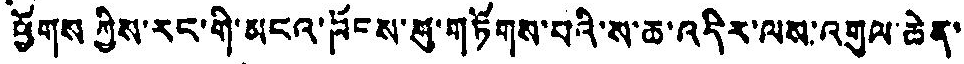ཕྱོགས ཀྱིས་རང་གི་མངའ་ཁོངས་སུ་གཏོགས་པའི་ས་ཆ་འདིར་ལས་འགུལ་ཆེན་
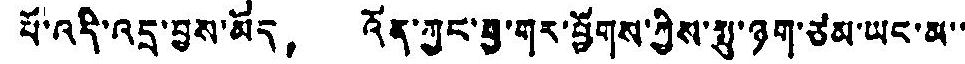པོ་འདི་འདྲ་བྱས་མོད， འོན་ཀྱང་བྱ་གར་ཕྱོགས་ཀྱིས་སྤུ་ཉག་ཙམ་ཡང་མ་་
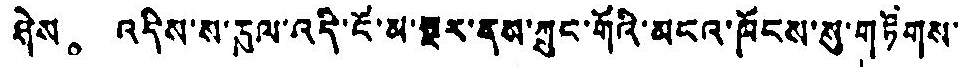ཤེས。 འདིས་ས་ཁུལ་འདི་ངོ་མ་སྔར་ནས་ཀྲུང་གོའི་མངའ་ཁོངས་སུ་གཏོགས་
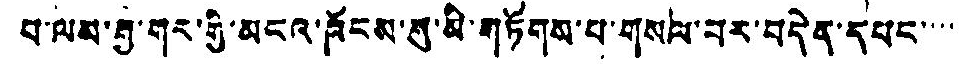བ་ལམ་རྒྱ་གར་གྱི་མངའ་ཁོངས་སུ་མི་གཏོགས་པ་གསལ་བར་བདེན་དཔང་་་་་
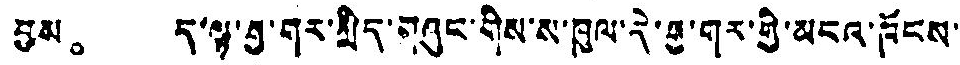བྱས。 ད་ལྟ་བུ་གར་སྲིད་མཞུང་གིས་ས་ཁུལ་དེ་རྒྱ་གར་གྱི་མངའ་ཁོངས་
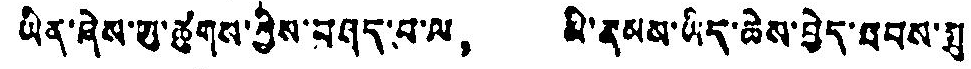ཡིན་ཞེས་ཨུ་ཚུགས་ཀྱིས་བཤད་པ་ལ， མི་རྣམས་ཡིད་ཆེས་བྱེད་ཐབས་སྨུ་
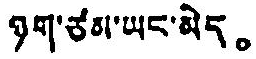ཉག་ཙམ་ཡང་མེད。
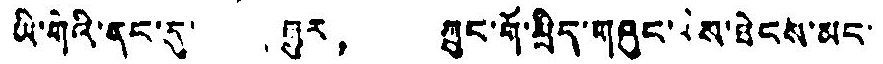ཡི་གེའི་ནང་དུ་ རྒྱུར， ཀྲུང་གོ་སྲིད་གཞུང་རིས་ཐེངས་མང་
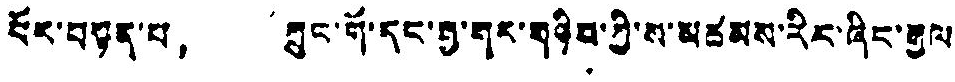པོར་བསྟན་པ， ཀྲུང་གོ་དང་བྱ་གར་གཉིབ་ཀྱི་ས་མཚམས་རིང་ཞིང་རྒྱལ
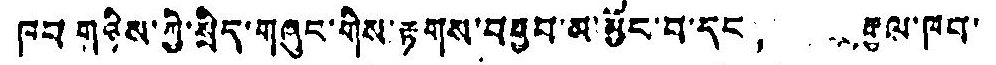ཁབ གཉིས་ཀྱི་སྲིད་གཞུང་གིས་རྟགས་བརྒྱབ་མ་མྱོང་བ་དང， རྒྱལ་ཁབ་
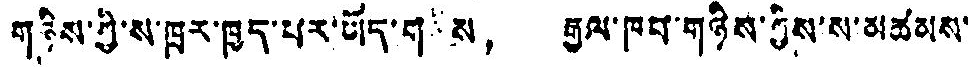གཉིས་ཀྱི་ས་ཁྲུར་ཁྱད་པར་ཡོད་ག ས， རྒྱལ་ཁབ་གཉིས་ཀྱིས་ས་མཚམས་
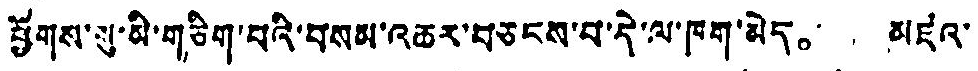ཕྱོགས་སུ་མི་གཅིག་པའི་བསམ་འཆར་བཅངས་བ་དེ་ལ་ཁག་མེད。 མཛའ་
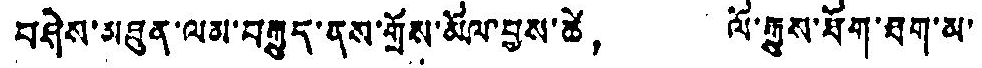བཤེས་མཐུན་ལམ་བརྒྱུད་ནས་གྲོས་མོལ་བྱས་ཚེ， ལོ་རྒྱུས་ཐོག་ཐག་མ་
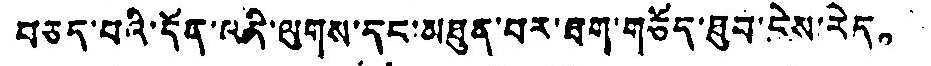བཅད་པའི་དོན་འནི་ལུགས་དང་མཐུན་པར་ཐག་གཅོད་ཐུབ་ངེས་རེད。
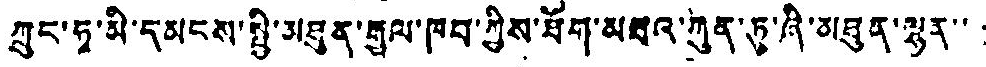ཀྲུང་ཧྭ་མི་དམངས་སྤྱི་མཐུན་རྒྱལ་ཁབ་ཀྱིས་ཐོག་མཐའ་ཀུན་ཏུ་ཞི་མཐུན་ལྷན་་་
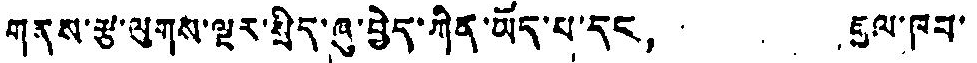གནས་རྩ་ལུགས་ལྔར་སྲིད་ཞུ་བྱེད་ཀིན་ཡོད་པ་དང， རྒྱལ་ཁབ་
